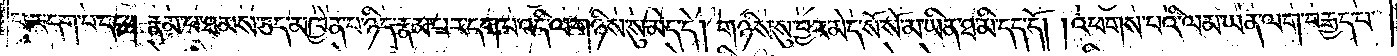པར་དག་པ་དང༌། རྣམ་པ་ཐམས་ཅད་མཁྱེན་པ་ཉིད་རྣམ་པར་དག་པ་འདི་ལ་གཉིས་སུ་མེད་དེ། གཉིས་སུ་བྱར་མེད་སོ་སོ་མ་ཡིན་ཐ་མི་དད་དོ། །འཕགས་པའི་ལམ་ཡན་ལག་བརྒྱད་པ་
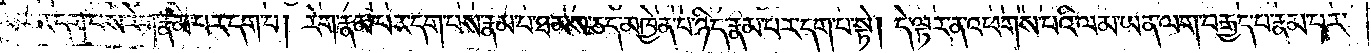རྣམ་པར་དག་པས་རེག་རྣམ་པར་དག་པ། རེག་རྣམ་པར་དག་པས་རྣམ་པ་ཐམས་ཅད་མཁྱེན་པ་ཉིད་རྣམ་པར་དག་པ་སྟེ། དེ་ལྟར་ན་འཕགས་པའི་ལམ་ཡན་ལག་བརྒྱད་པ་རྣམ་པར་
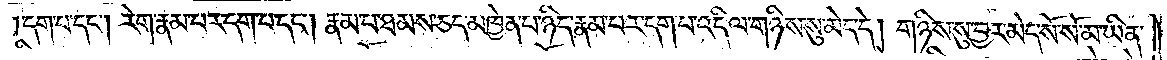དག་པ་དང༌། རེག་རྣམ་པར་དག་པ་དང༌། རྣམ་པ་ཐམས་ཅད་མཁྱེན་པ་ཉིད་རྣམ་པར་དག་པ་འདི་ལ་གཉིས་སུ་མེད་དེ། གཉིས་སུ་བྱར་མེད་སོ་སོ་མ་ཡིན་
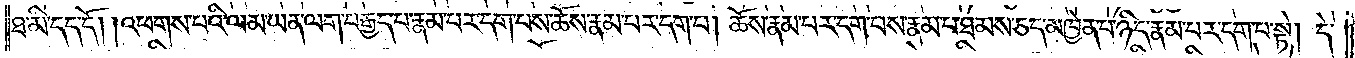ཐ་མི་དད་དོ། །འཕགས་པའི་ལམ་ཡན་ལག་བརྒྱད་པ་རྣམ་པར་དག་པས་ཆོས་རྣམ་པར་དག་པ། ཆོས་རྣམ་པར་དག་པས་རྣམ་པ་ཐམས་ཅད་མཁྱེན་པ་ཉིད་རྣམ་པར་དག་པ་སྟེ། དེ་
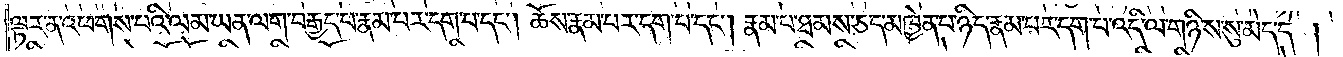ལྟར་ན་འཕགས་པའི་ལམ་ཡན་ལག་བརྒྱད་པ་རྣམ་པར་དག་པ་དང༌། ཆོས་རྣམ་པར་དག་པ་དང༌། རྣམ་པ་ཐམས་ཅད་མཁྱེན་པ་ཉིད་རྣམ་པར་དག་པ་འདི་ལ་གཉིས་སུ་མེད་དེ།
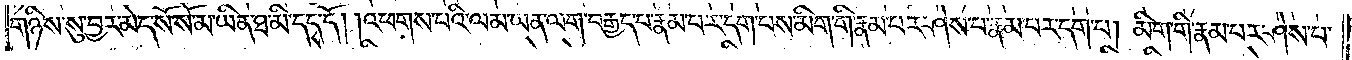གཉིས་སུ་བྱར་མེད་སོ་སོ་མ་ཡིན་ཐ་མི་དད་དོ། །འཕགས་པའི་ལམ་ཡན་ལག་བརྒྱད་པ་རྣམ་པར་དག་པས་མིག་གི་རྣམ་པར་ཤེས་པ་རྣམ་པར་དག་པ། མིག་གི་རྣམ་པར་ཤེས་པ་
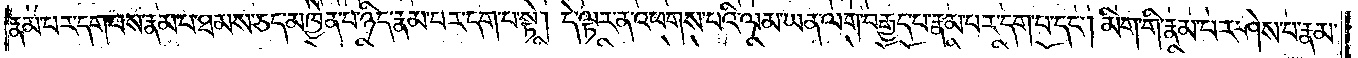རྣམ་པར་དག་པས་རྣམ་པ་ཐམས་ཅད་མཁྱེན་པ་ཉིད་རྣམ་པར་དག་པ་སྟེ། དེ་ལྟར་ན་འཕགས་པའི་ལམ་ཡན་ལག་བརྒྱད་པ་རྣམ་པར་དག་པ་དང༌། མིག་གི་རྣམ་པར་ཤེས་པ་རྣམ་
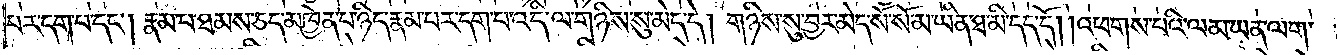པར་དག་པ་དང༌། རྣམ་པ་ཐམས་ཅད་མཁྱེན་པ་ཉིད་རྣམ་པར་དག་པ་འདི་ལ་གཉིས་སུ་མེད་དེ། གཉིས་སུ་བྱར་མེད་སོ་སོ་མ་ཡིན་ཐ་མི་དད་དོ། །འཕགས་པའི་ལམ་ཡན་ལག་
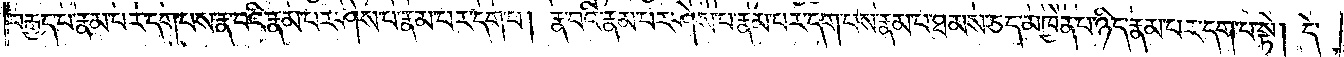བརྒྱད་པ་རྣམ་པར་དག་པས་རྣ་བའི་རྣམ་པར་ཤེས་པ་རྣམ་པར་དག་པ། རྣ་བའི་རྣམ་པར་ཤེས་པ་རྣམ་པར་དག་པས་རྣམ་པ་ཐམས་ཅད་མཁྱེན་པ་ཉིད་རྣམ་པར་དག་པ་སྟེ། དེ་
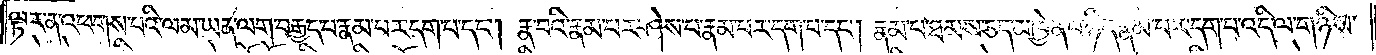ལྟར་ན་འཕགས་པའི་ལམ་ཡན་ལག་བརྒྱད་པ་རྣམ་པར་དག་པ་དང༌། རྣ་བའི་རྣམ་པར་ཤེས་པ་རྣམ་པར་དག་པ་དང༌། རྣམ་པ་ཐམས་ཅད་མཁྱེན་པ་ཉིད་རྣམ་པར་དག་པ་འདི་ལ་གཉིས་
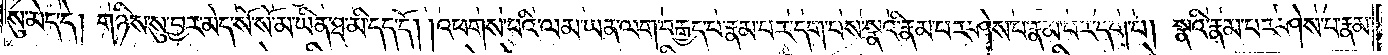སུ་མེད་དེ། གཉིས་སུ་བྱར་མེད་སོ་སོ་མ་ཡིན་ཐ་མི་དད་དོ། །འཕགས་པའི་ལམ་ཡན་ལག་བརྒྱད་པ་རྣམ་པར་དག་པས་སྣའི་རྣམ་པར་ཤེས་པ་རྣམ་པར་དག་པ། སྣའི་རྣམ་པར་ཤེས་པ་རྣམ་
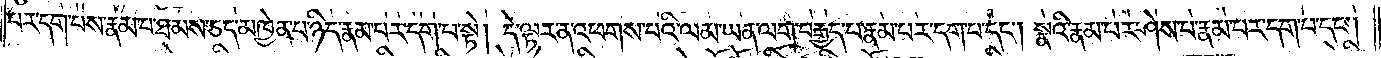པར་དག་པས་རྣམ་པ་ཐམས་ཅད་མཁྱེན་པ་ཉིད་རྣམ་པར་དག་པ་སྟེ། དེ་ལྟར་ན་འཕགས་པའི་ལམ་ཡན་ལག་བརྒྱད་པ་རྣམ་པར་དག་པ་དང༌། སྣའི་རྣམ་པར་ཤེས་པ་རྣམ་པར་དག་པ་དང༌།
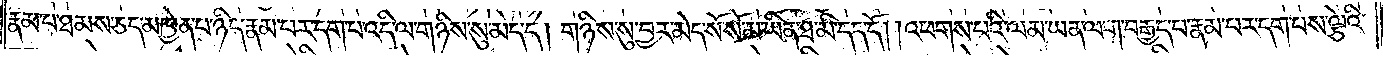རྣམ་པ་ཐམས་ཅད་མཁྱེན་པ་ཉིད་རྣམ་པར་དག་པ་འདི་ལ་གཉིས་སུ་མེད་དེ། གཉིས་སུ་བྱར་མེད་སོ་སོ་མ་ཡིན་ཐ་མི་དད་དོ། །འཕགས་པའི་ལམ་ཡན་ལག་བརྒྱད་པ་རྣམ་པར་དག་པས་ལྕེའི་
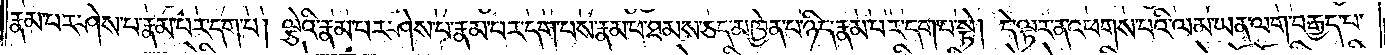རྣམ་པར་ཤེས་པ་རྣམ་པར་དག་པ། ལྕེའི་རྣམ་པར་ཤེས་པ་རྣམ་པར་དག་པས་རྣམ་པ་ཐམས་ཅད་མཁྱེན་པ་ཉིད་རྣམ་པར་དག་པ་སྟེ། དེ་ལྟར་ན་འཕགས་པའི་ལམ་ཡན་ལག་བརྒྱད་པ་
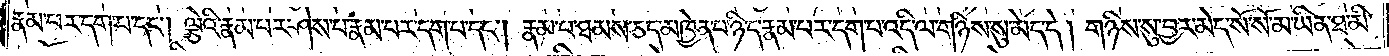རྣམ་པར་དག་པ་དང༌། ལྕེའི་རྣམ་པར་ཤེས་པ་རྣམ་པར་དག་པ་དང༌། རྣམ་པ་ཐམས་ཅད་མཁྱེན་པ་ཉིད་རྣམ་པར་དག་པ་འདི་ལ་གཉིས་སུ་མེད་དེ། གཉིས་སུ་བྱར་མེད་སོ་སོ་མ་ཡིན་ཐ་མི་
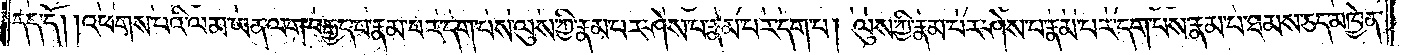དད་དོ། །འཕགས་པའི་ལམ་ཡན་ལག་བརྒྱད་པ་རྣམ་པར་དག་པས་ལུས་ཀྱི་རྣམ་པར་ཤེས་པ་རྣམ་པར་དག་པ། ལུས་ཀྱི་རྣམ་པར་ཤེས་པ་རྣམ་པར་དག་པས་རྣམ་པ་ཐམས་ཅད་མཁྱེན་
